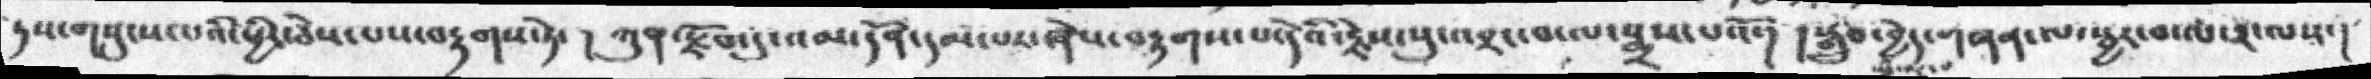ཏས་གསུངས་པའི་ཕྱིར་ཅེས་པས་བརྟགས་ཏེ་།  ཀུན་རྫོབ་དུ་འམ་དོན་དམ་པར་ཞེས་བརྟགས་པ་དེའི་རྗེས་སུ་འབྲང་པ་ལ་སྨྲས་པའོ་།  །སྒྲུབ་བྱེད་གཞན་ལ་སྦྱར་བ་ལ་༢་ལས་།
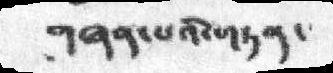གཞན་པའི་གཏན་
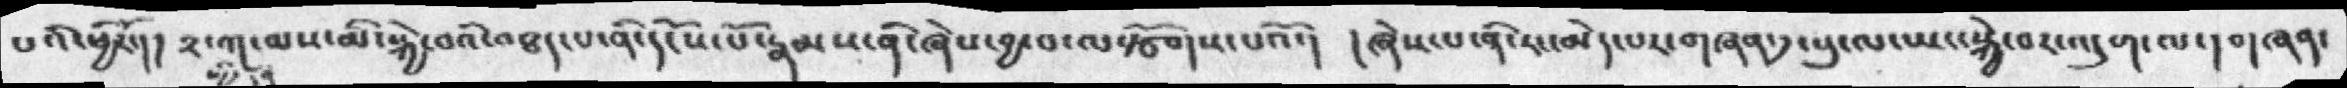པའི་ཕྱིརོ་།།  ༢་ཀ་ལས་མི་སྐྱེ་བའི་འཐད་པ་ནི་དངོས་པོ་རྣམས་ནི་ཞེས་བྱ་བ་ལསྩོགས་པའོ་།  །ཞེསཔ་ནི་རང་མེད་པར་གཞན་༡་སུ་ལ་ཡང་སྐྱེ་བར་འདུག་ལ་། གཞན་
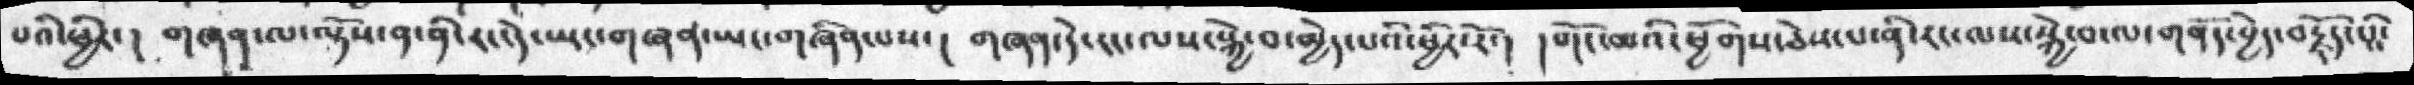པའི་ཕྱིར་།  གཞན་ལ་ལྟོས་ན་ནི་རང་དེ་ཡང་གཞན་ཡང་བཞིན་པས་།  གཞན་དེ་ངང་ལས་སྐྱེ་བ་མྱེད་པའི་ཕྱིར་རོ་།  །གོང་མའི་ཕྱོགས་ཅེས་པ་ནི་རང་ལས་སྐྱེ་བ་ལ་གནོད་བྱེད་བརྗོད་པའི་
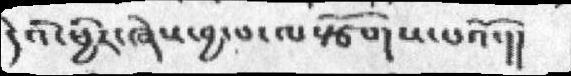དེའི་ཕྱིར་ཞེས་བྱ་བ་ལསྩོགས་པའོ་།།
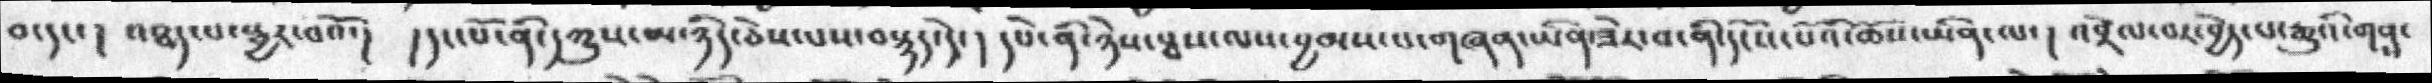བ་དང་།  འཐད་པ་སྦྱར་བའོ་།  །དང་པོ་ནི་དཀྱུས་མ་ཉིད་ཅེས་པས་བསྙད་དེ་།  དཔེ་ནི་ཉེས་སྦས་ལས་བྱམས་པ་གཞན་ཡིན་ཟེར་བ་ནི་དངོས་པོའི་ཆོས་ཡིན་ལ་།  འབྲེལ་བར་བྱེ་པ་རྒྱུའི་གནས་
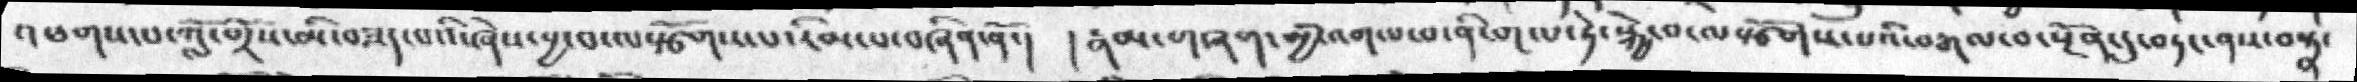འཕགས་པ་གླ་གྲོས་མི་བཟད་པའི་ཞེས་བྱ་བ་ལསྩོགས་པ་རིམ་པ་བཞིན་ནོ་།  །རྣམ་གཞག་མྱི་འགལ་བ་ནི་གལ་ཏེ་སྐྱེ་བ་ལསྩོགས་པའི་བརྒལ་བ་སྔོན་དུ་བཏང་ནས་བསྟན་
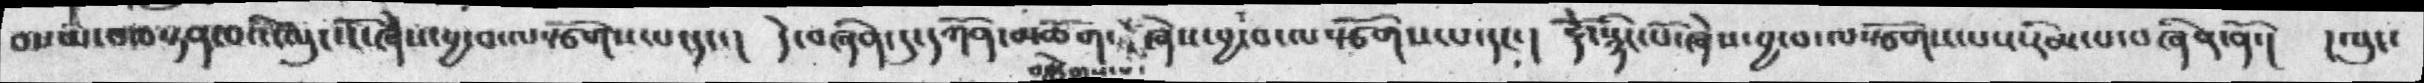བསམ་པ་བསྟན་པའི་ལུང་ངོ་ཞེས་བྱ་བ་ལསྩོགས་པ་དང་།   དེ་བཞིན་དུ་དཀོན་མཆོག་བརྩེགས་པ་བྱ་བ་ལསྩོགས་པ་དང་།  རྡོེ་སྙིང་པོ་ཞེས་བྱ་བ་ལསྩོགས་པས་རིམ་པ་བཞིན་པོ་།  །ལུང་
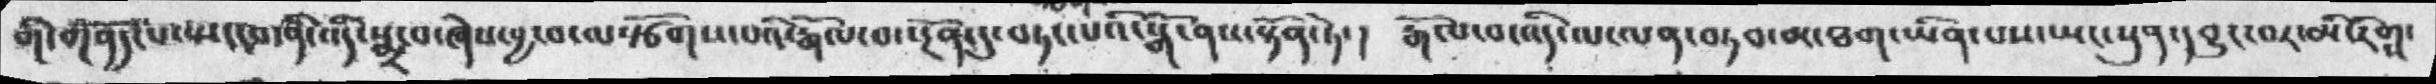གི་གནོད་པ་སྤང་པ་ནི་འདི་སྨྲ་བ་ཞེས་བྱ་བ་ལསྩོགས་པའི་རྒོལ་བ་སྔོན་དུ་བཏང་པའི་སྒོ་ནས་སྟོན་ཏེ་།   རྒོལ་བ་འདི་ལ་ལན་བཏབ་མ་ཐག་ཡིན་པས་སྤང་སུན་དབྱུང་བར་མི་རིགས་
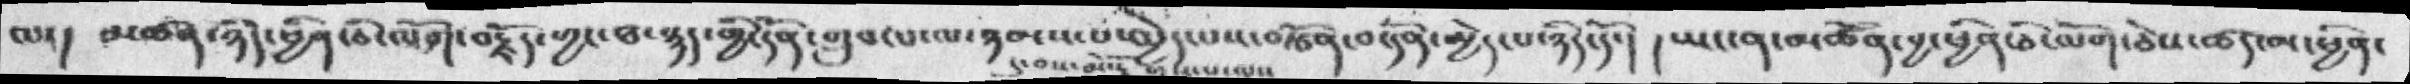ལས་།  མཚན་ཉིད་ཕྱིན་ཅི་ལོག་བརྗོད་ཀྱང་ཐ་སྙད་གྱི་དོན་གྲུབ་པ་ལ་ཉམས་པ་མྱེད་པས་བརྩོན་བ་དོན་མྱེདཔ་ཉིད་དོ་།  །ཡང་ན་མཚོན་བྱ་ཕྱིན་ཅི་ལོག་ཅེས་ཚད་མ་ཕྱི་
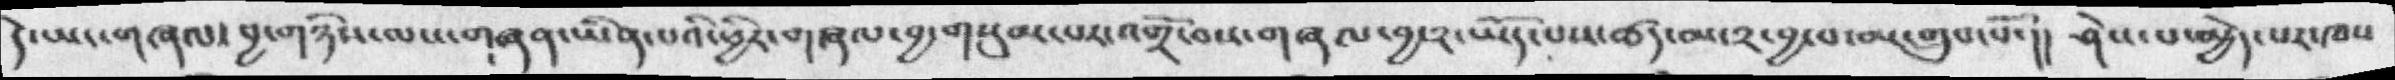ད་ཡང་གཞལ་བྱ་གཉིས་ལས་གཞན་ཡིན་པའི་ཕྱིར་གཞལ་བྱ་གསུམ་པར་འགྲོ་བས་གཞལ་བྱ་༢་ཡོད་པས་ཚད་མ་༢་བྱ་བ་མ་གྲུབ་པོ་།། ཤེས་པ་མྱེད་པར་ཁས
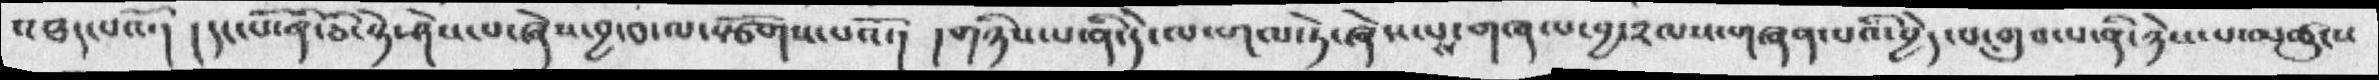འཐད་པའོ་།  །དང་པོ་ནི་ཅི་སྟེ་ཤེས་པ་ཞེས་བྱ་བ་ལ་སྩོགས་པའོ་།  །གཉིས་པ་ནི་དེ་ལ་གལ་ཏེ་ཞེས་པས་གཞལ་བྱ་༢ལས་གཞན་པའི་བྱེད་པ་གྲུབ་པ་ནི་ཉེས་པ་མཚུངས
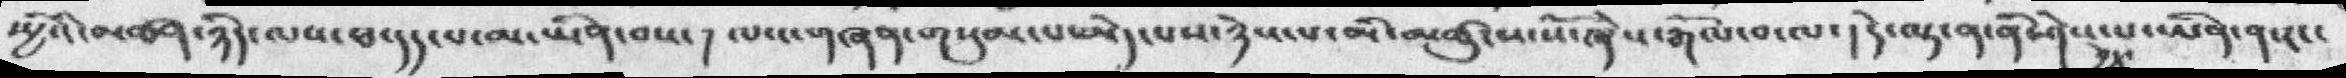སྤྱིའི་མཚན་ཉིད་ལས་མ་ཐ་དད་པ་མ་ཡིན་བས་།  ལས་གཞན་གསུམ་པ་མྱེད་པས་ཉེས་པ་མི་མཚུངས་སོ་ཞེས་རྒོལ་བ་ལ་།  དེ་ལྟ་ན་ནི་ཤེས་ཡིན་ན་རང་
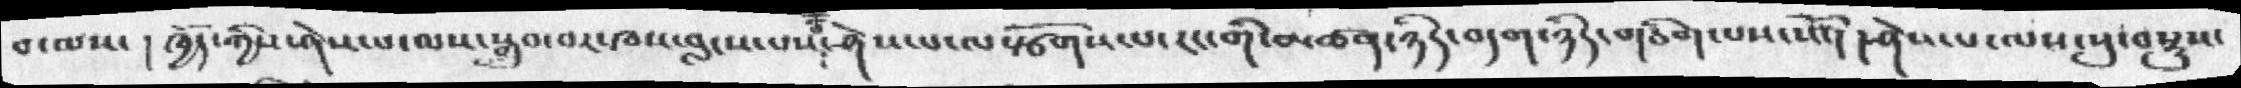བ་ལས་ ། ཁྱོད་གྱིས་ཤེས་པ་ལས་སྒྲུབ་པར་ཁས་བླངས་པས་ཤེས་པ་ལསྩོགས་པ་རང་གི་མཚན་ཉིད་བདག་ཉིད་གཅིག་པས་སོ་།  ཤེས་པ་ལས་སུ་བསྡུས་
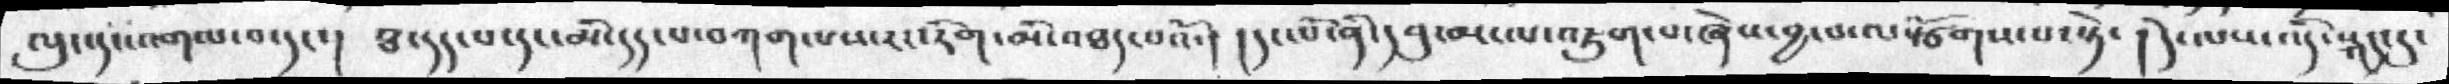ལུང་དང་འགལ་བ་དང་། ཐ་དད་པ་དང་མི་དད་པ་བཀག་པས་རང་རིག་མི་འཐད་པའོ་། །དང་པོ་ནི་དབུ་མ་ལ་འཇུག་པ་ཞེས་བྱ་བ་ལསྩོགས་པ་སྟེ་། དེ་ལས་འདི་སྐད་དུ་
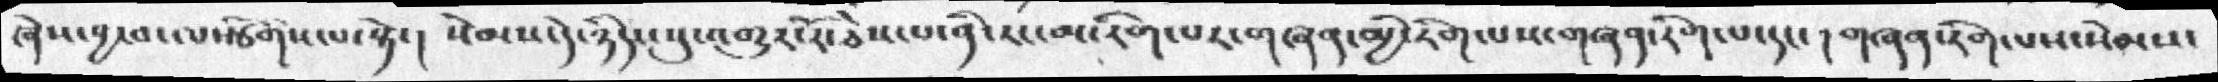ཞེས་བྱ་བ་ལསྩོགས་པ་སྟེ་།  སེམས་དེ་ཉིད་སུ་འགྱུར་རོ་ཅེས་པ་ནི་རང་མ་རིག་པར་གཞན་མྱི་རིག་པས་གཞན་རིག་པ་དང་། གཞན་རིག་པས་སེམས་
